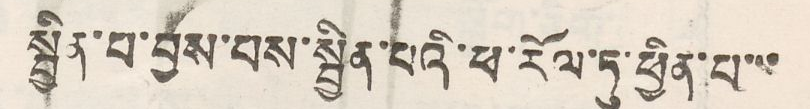སྦྱིན་པ་བྱས་པས་སྦྱིན་པའི་ཕ་རོལ་ཏུ་ཕྱིན་པ་་་
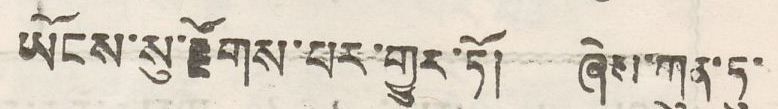ཡོངས་སུ་རྫོགས་པར་གྱུར་ཏོ། ཞེས་ཀུན་ཏུ་
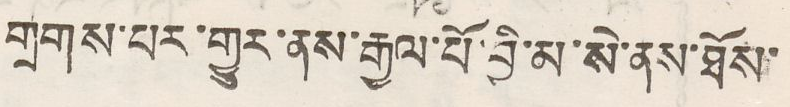གྲགས་པར་གྱུར་ནས་རྒྱལ་པོ་བྱི་མ་སེ་ནས་ཐོས་
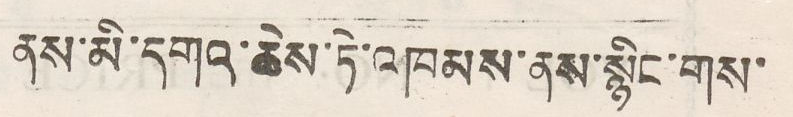ནས་མི་དགའ་ཆེས་ཏེ་འཁམས་ནས་སྙིང་གས་
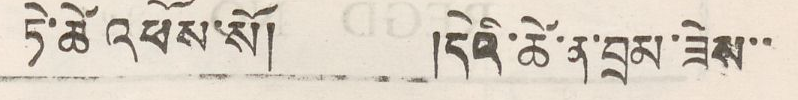རེ་ཚེ འཕོས་སོ། །དེའི་ཚེ་ན་བྲམ་ཟེས་་
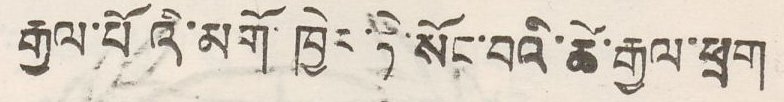རྒྱལ་པོའི་མགོ་ཁྱེར་ཏེ་སོང་བའི་ཚེ་རྒྱལ་ཕྲག
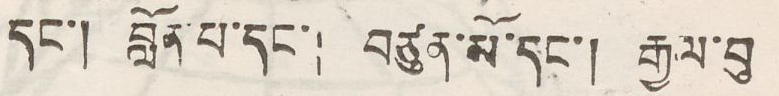དང་། བློན་པ་དང་། བཙུན་མོ་དང་། རྒྱལ་བུ
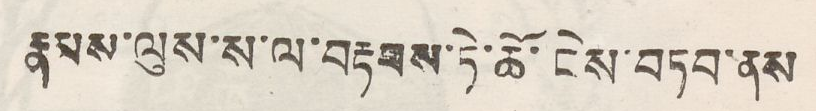རྣམས་ལུས་ས་ལ་བརྟབས་ཏེ་ཆོ་ངེས་བཏབ་ནས
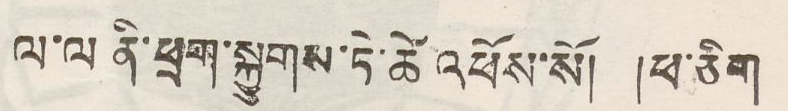ལ་ལ ནི་ཕྲག་སྐྱུགས་ཏེ་ཚེ འཕོས་སོ། །ཕ་ཅིག
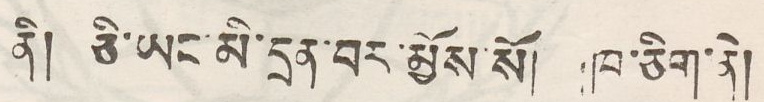ནི། ཅི་ཡང་མི་དྲན་བར་མྱོས་སོ། ཁ་ཅིག་ནེ།
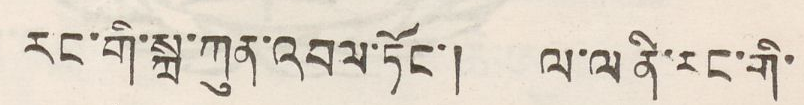རང་གི་སྐྲ་ཀུན་འབལ་ཏོང་། ལ་ལ་ནི་རང་གི་
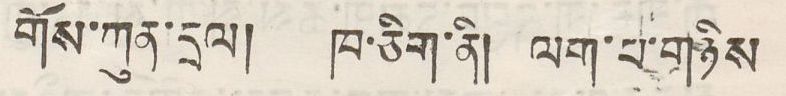གོས་ཀུན་དྲལ། ཁ་ཅིག་ནི། ལག་པ་གཉིས
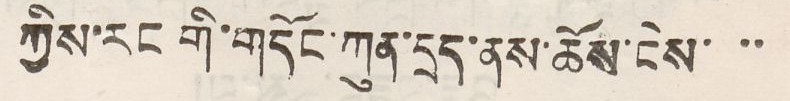ཀྱིས་རང་གི་གདོང་ཀུན་དྲད་ནས་ཆོས་ངེས་ ་་
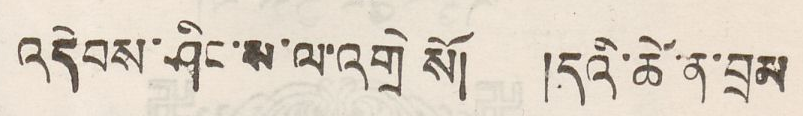འདེབས་ཤིང་ས་ལ་འགྲེ སོ། །དའི་ཚེ་ན་བྲམ
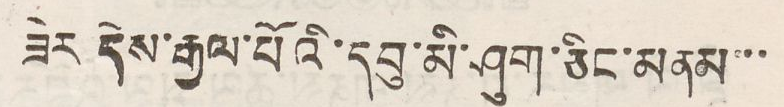ཟེར དེས་རྒྱལ་པོའི་དབུ་མི་ཤུག་ཅིང་མནམ་་་
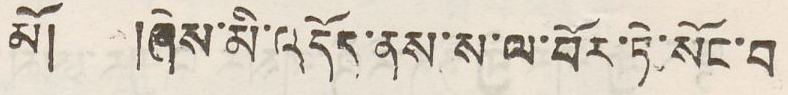མོ། །ཞེས་མི་འདོད་ནས་ས་ལ་པོར་ཏེ་སོང་བ
